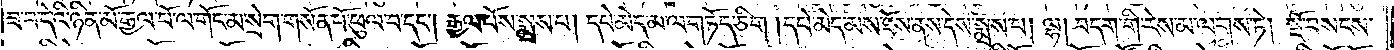ཟ་བ་དེའི་ཉིན་མོ་རྒྱལ་པོ་ལ་གོང་མ་སྲེག་གསོན་པོ་ཕུལ་བ་དང༌། རྒྱལ་པོས་སྨྲས་པ། དཔེ་མེད་མ་ལ་གཏོད་ཅིག །དཔེ་མེད་མས་ཐོས་ནས་དེས་སྨྲས་པ། ལྷ། བདག་གི་རེས་མ་ལགས་ཏེ། སྔོ་བསངས་
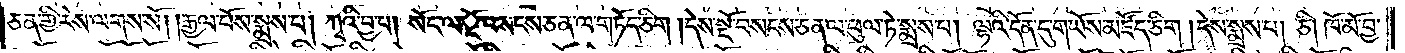ཅན་གྱི་རེས་ལགས་སོ། །རྒྱལ་པོས་སྨྲས་པ། ཀྭའི་བྱ་བ། སོང་ལ་སྔོ་བསངས་ཅན་ལ་གཏོད་ཅིག །དེས་སྔོ་བསངས་ཅན་ལ་ཕུལ་ཏེ་སྨྲས་པ། ལྷའི་དོན་དུ་གཡོས་མཛོད་ཅིག །དེས་སྨྲས་པ། ཅི། ཁོ་མོ་བྱ་
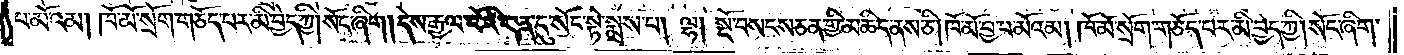བ་མོའམ། ཁོ་མོ་སྲོག་གཅོད་པར་མི་བྱེད་ཀྱི། སོང་ཞིག །དེས་རྒྱལ་པོའི་གན་དུ་སོང་སྟེ་སྨྲས་པ། ལྷ། སྔོ་བསངས་ཅན་གྱི་མཆིད་ནས་ཅི། ཁོ་མོ་བྱ་པ་མོའམ། ཁོ་མོ་སྲོག་གཅོད་པར་མི་བྱེད་ཀྱི། སོང་ཞིག་
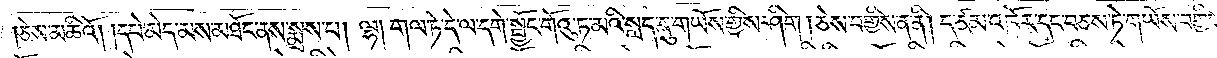ཅེས་མཆིའོ། །དཔེ་མེད་མས་མཐོང་ནས་སྨྲས་པ། ལྷ། གལ་ཏེ་དེ་ལ་དགེ་སྦྱོང་གོའུ་ཏ་མའི་སླད་དུ་གཡོས་གྱིས་ཤིག །ཅེས་བགྱིས་ན་ནི། ད་ཙམ་འཁོར་དང་བཅས་ཏེ་གཡོས་བགྱིད་
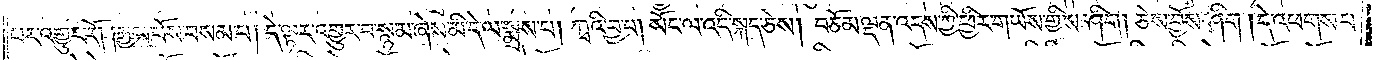པར་འགྱུར་རོ། །རྒྱལ་པོས་བསམ་པ། དེ་ལྟར་འགྱུར་བ་སྙམ་ཞེས་མི་དེ་ལ་སྨྲས་པ། ཀྭའི་བྱ་བ། སོང་ལ་འདི་སྐད་ཅེས། བཅོམ་ལྡན་འདས་ཀྱི་ཕྱིར་གཡོས་གྱིས་ཤིག །ཅེས་བྱོས་ཤིག །དེ་འཕགས་པ་
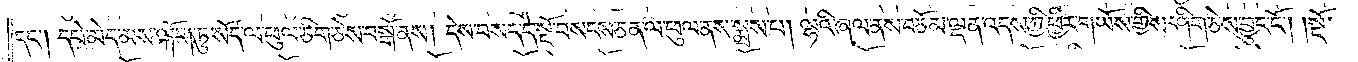དང༌། དཔེ་མེད་མས་ལྐོག་ཏུ་སོད་ལ་ཕུལ་ཅིག་ཅེས་བསྒོ་ནས། དེས་བསད་དེ་སྔོ་བསངས་ཅན་ལ་ཕུལ་ནས་སྨྲས་པ། ལྷའི་ཞལ་ནས་བཅོམ་ལྡན་འདས་ཀྱི་ཕྱིར་གཡོས་གྱིས་ཤིག་ཅེས་བྱུང་ངོ༌། །སྔོ་
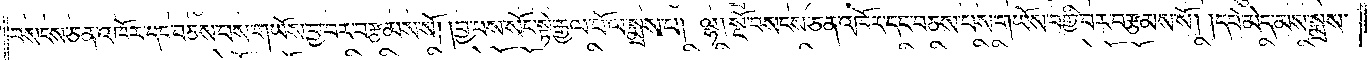བསངས་ཅན་འཁོར་དང་བཅས་པས་གཡོས་བྱ་བར་བརྩམས་སོ། །བྱ་བས་སོང་སྟེ་རྒྱལ་པོ་ལ་སྨྲས་པ། ལྷ། སྔོ་བསངས་ཅན་འཁོར་དང་བཅས་པས་གཡོས་བགྱི་བར་བརྩམས་སོ། །དཔེ་མེད་མས་སྨྲས་
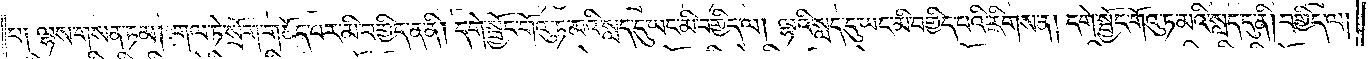པ༑ ལྷས་གསན་ཏམ། གལ་ཏེ་སྲོག་གཅོད་པར་མི་བགྱིད་ན་ནི། དགེ་སྦྱོང་གོའུ་ཏ་མའི་སླད་དུ་ཡང་མི་བགྱིད་ལ། ལྷའི་སླད་དུ་ཡང་མི་བགྱིད་པའི་རིགས་ན། དགེ་སྦྱོང་གོའུ་ཏ་མའི་སླད་དུ་ནི། བགྱིད་ལ་
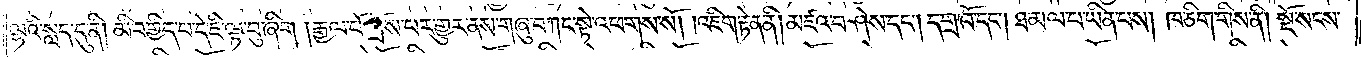ལྷའི་སླད་དུ་ནི། མི་བགྱིད་པ་དེ་ཇི་ལྟ་བུ་ཞིག །རྒྱལ་པོ་ཁྲོས་པར་གྱུར་ནས་གཞུ་བཀང་སྟེ་འཕགས་སོ། །འཇིག་རྟེན་ནི། མཛའ་བཤེས་དང༌། དགྲ་བོ་དང༌། ཐ་མལ་པ་ཡིན་པས། ཁ་ཅིག་གིས་ནི། སྔོ་སངས་
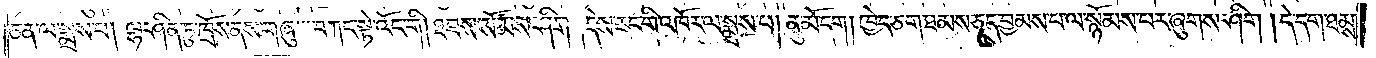ཅན་ལ་སྨྲས་པ། ལྷ་ཤིན་ཏུ་ཁྲོས་ནས་གཞུ་བཀང་སྟེ་འོང་གི། ཐབས་སོམས་ཤིག །དེས་རང་གི་འཁོར་ལ་སྨྲས་པ། ནུ་མོ་དག །ཁྱེད་ཅག་ཐམས་ཅད་བྱམས་པ་ལ་སྙོམས་པར་ཞུགས་ཤིག །དེ་དག་ཐམས་
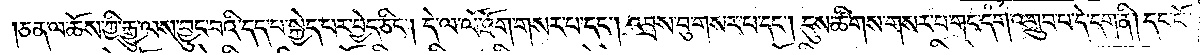ཅན་ལ་ཆོས་ཀྱི་རྒྱུ་ལས་བྱུང་བའི་དད་པ་སྐྱེད་པར་བྱེད་ཅིང༌། དེ་ལ་ལོ་ཐོག་གསར་པ་དང༌། འབྲས་བུ་གསར་པ་དང༌། དུས་ཚིགས་གསར་པ་གང་དག་འགྲུབ་པ་དེ་དག་ནི། དང་པོ་
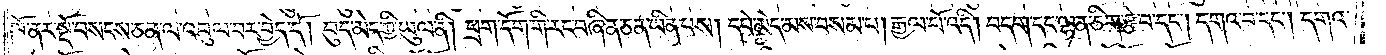ཁོ་ནར་སྔོ་བསངས་ཅན་ལ་འབུལ་བར་བྱེད་དོ། བུད་མེད་ཀྱི་ཡུལ་ནི། ཕྲག་དོག་གི་རང་བཞིན་ཅན་ཡིན་པས། དཔེ་མེད་མས་བསམ་པ། རྒྱལ་པོ་འདི། བདག་དང་ལྷན་ཅིག་རྩེ་བ་དང༌། དགའ་བ་དང༌། དགའ་
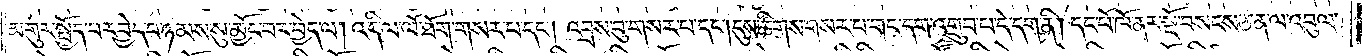མགུར་སྤྱོད་པར་བྱེད་པ་ཉམས་སུ་མྱོང་བར་བྱེད་ལ། འདི་ལ་ལོ་ཐོག་གསར་པ་དང༌། འབྲས་བུ་གསར་པ་དང༌། དུས་ཚིགས་གསར་པ་གང་དག་འགྲུབ་པ་དེ་དག་ནི། དང་པོ་ཁོ་ནར་སྔོ་བསངས་ཅན་ལ་འབུལ་
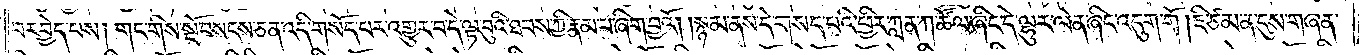བར་བྱེད་པས། གང་གིས་སྔོ་བསངས་ཅན་འདི་གསོད་པར་འགྱུར་བ་དེ་ལྟ་བུའི་ཐབས་ཀྱི་རྣམ་པ་ཞིག་བྱའོ། །སྙམ་ནས་དེ་གསད་པའི་ཕྱིར་ཀླན་ཀ་ཚོལ་ཞིང་དེ་ལྷུར་ལེན་ཞིང་འདུག་གོ །ཇི་ཙམ་ན་དུས་གཞན་
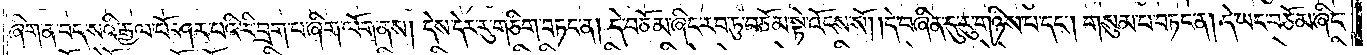ཞིག་ན་བད་སའི་རྒྱལ་པོ་ཤར་པའི་རི་བྲག་པ་ཞིག་ལོག་ནས། དེས་དེར་རུ་གཅིག་བཏང་ན། དེ་བཅོམ་ཞིང་རབ་ཏུ་བཅོམ་སྟེ་འོངས་སོ། །དེ་བཞིན་དུ་རུ་གཉིས་པ་དང༌། གསུམ་པ་བཏང་ན། དེ་ཡང་བཅོམ་ཞིང་
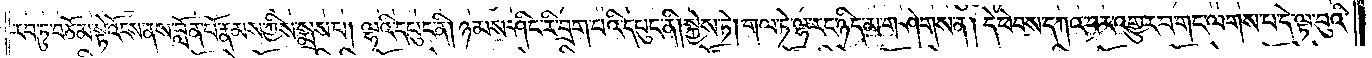རབ་ཏུ་བཅོམ་སྟེ་འོངས་ནས་བློན་པོ་རྣམས་ཀྱིས་སྨྲས་པ། ལྷའི་དཔུང་ནི། ཉམས་ཤིང་རི་བྲག་པའི་དཔུང་ནི། སྐྱེས་ཏེ། གལ་ཏེ་ལྷ་རང་ཉིད་མ་གཤེགས་ན། དེ་ཕེབས་དཀའ་བར་འགྱུར་བ་གང་ལགས་པ་དེ་ལྟ་བུའི་
